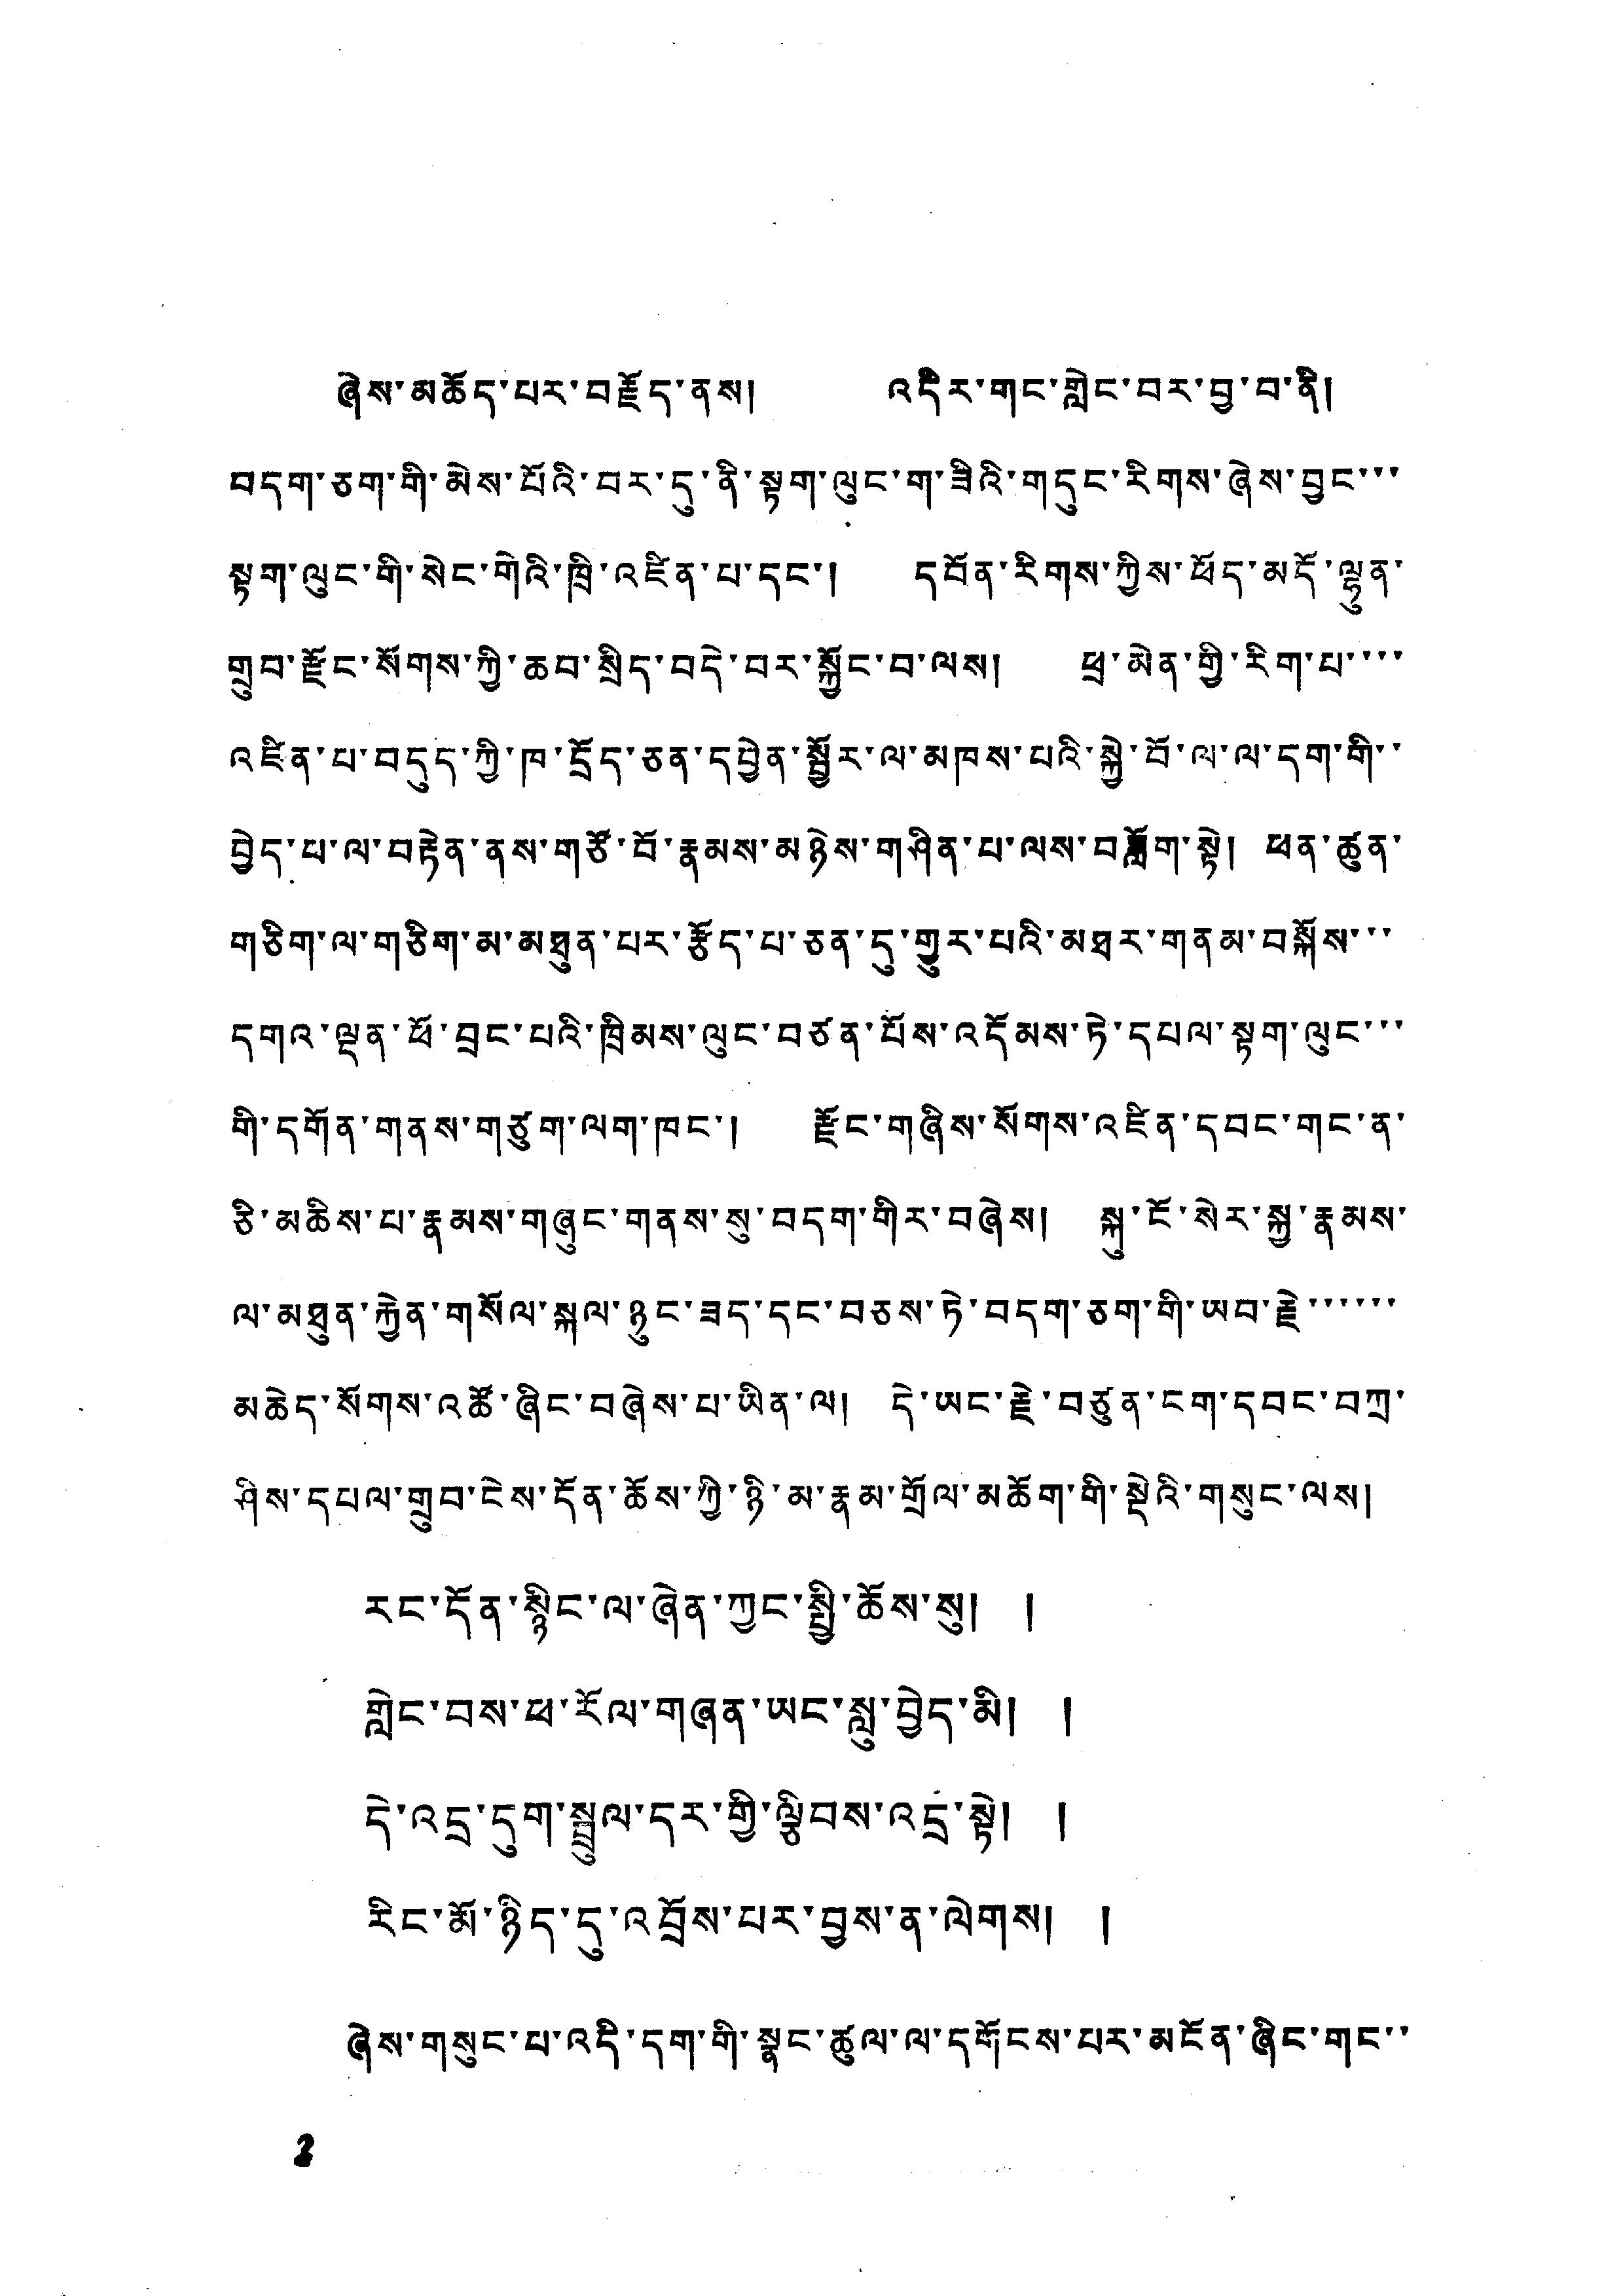ཞེས་མཆོད་པར་བརྗོད་ནས། འདིར་གང་གླེང་བར་བྱ་བ་ནི།
བདག་ཅག་གི་མེས་པོའི་བར་དུ་ནི་སྟག་ལུང་ག་ཟིའི་གདུང་རིགས་ཞེས་བྱང་་་
སྟག་ལུང་གི་སེང་གེའི་ཁྲི་འཛིན་པ་དང་། དབོན་རིགས་ཀྱིས་ཕོད་མདོ་ལྷན་
གྲུབ་རྫོང་སོགས་ཀྱི་ཆབ་སྲིད་བདེ་བར་སྐྱོང་བ་ལས། ཕྲ་མེན་གྱི་རིག་པ་་་་
འཛིན་པ་བདུད་ཀྱི་ཁ་དྲོད་ཅན་དབྱེན་སྦྱོར་ལ་མཁས་པའི་སྐྱེ་བོ་ལ་ལ་དག་གི་་
བྱེད་པ་ལ་བརྟེན་ནས་གཙོ་བོ་རྣམས་མཉེས་གཤིན་པ་ལས་བཟློག་སྟེ། ཕན་ཚུན་
གཅིག་ལ་གཅིག་མ་མཐུན་པར་རྩོད་པ་ཅན་དུ་གྱུར་པའི་མཐར་གནམ་བསྐོས་་་
དགའ་ལྡན་ཕོ་བྲང་པའི་ཁྲིམས་ལུང་བཙན་པོས་འདོམས་ཏེ་དཔལ་སྟག་ལུང་་་
གི་དགོན་གནས་གཙུག་ལག་ཁང་། རྫོང་གཞིས་སོགས་འཛིན་དབང་གང་ན་
ཆི་མཆིས་པ་རྣམས་གཞུང་གནས་སུ་བདག་གིར་བཞེས། སྐུ་ངོ་སེར་སྐྱ་རྣམས་་
ལ་མཐུན་རྐྱེན་གསོལ་སྐལ་ཉུང་ཟད་དང་བཅས་ཏེ་བདག་ཅག་གི་ཡབ་རྗེ་་་་་་
མཆེད་སོགས་འཚོ་ཞིང་བཞེས་པ་ཡིན་ལ། དེ་ཡང་རྗེ་བཙུན་ངག་དབང་བཀྲ་
ཤིས་དཔལ་གྲུབ་ངེས་དོན་ཆོས་ཀྱི་ཉི་མ་རྣམ་གྲོལ་མཆོག་གི་སྡེའི་གསུང་ལས།
རུང་དོན་སྙིང་ལ་ཞེན་ཀྱང་སྤྱི་ཆོས་སུ། །
གླེང་བྱས་ཕ་རོལ་གཞན་ཡང་སླུ་བྱེད་མི། །
དེ་འདྲ་དུག་སྦྲུལ་དར་གྱི་ལྕིབས་འདྲ་སྟེ། །
རིང་མོ་ཉིད་དུ་འབྲོས་པར་བྱས་ན་ལེགས། །
ཞེས་གསུང་པ་འདི་དག་གི་སྣང་ཚུལ་ལ་དགོངས་པར་མངོན་ཞིང་གང་་
2
